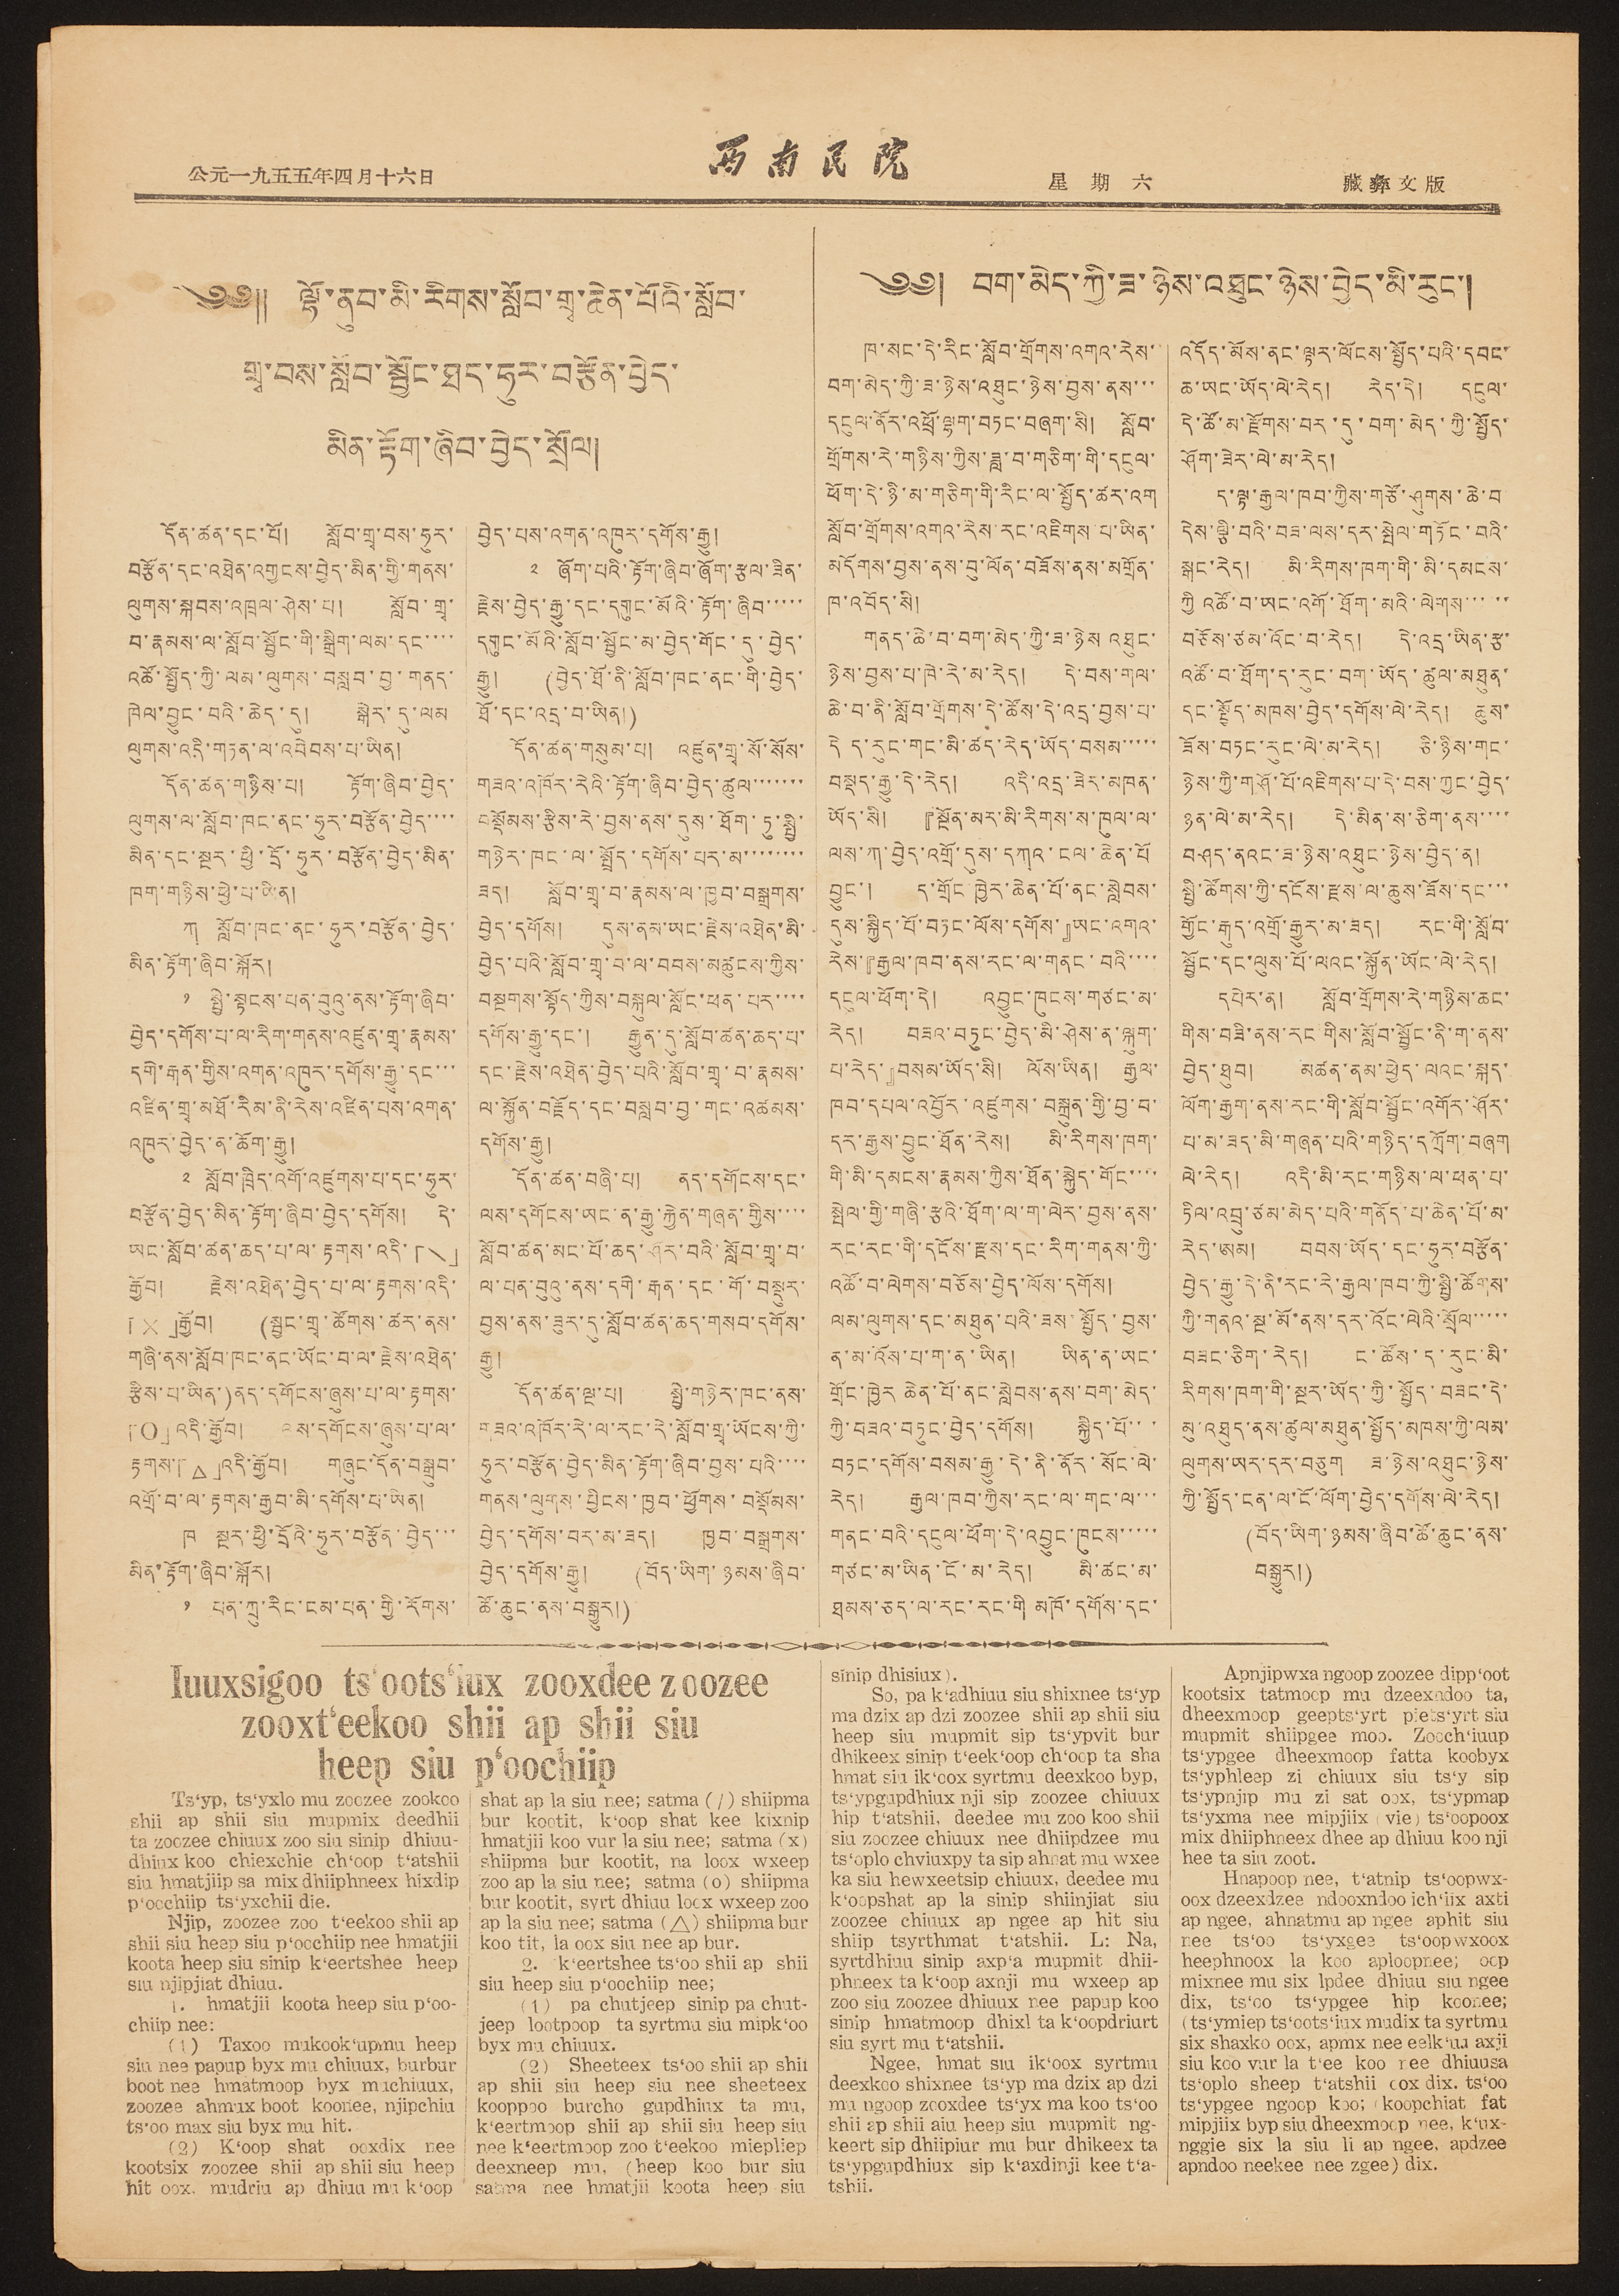公元一九五五年四月十六日 西南民院 星期六 藏彝文版
༄༅༎ ལྷོ་ནུབ་མི་རིགས་སློབ་གྲྭ་ཆེན་པོའི་སློབ་
གྲྭ་བས་སློབ་སྦྱོང་ཐད་ཧུར་བརྩོན་བྱེད་
མིན་རྟོག་ཞིབ་བྱེད་སྲོལ།
དོན་ཚན་དང་པོ། སློབ་གྲྭ་བས་ཧུར་
བརྩོན་དང་འཐེན་འགྱངས་བྱེད་མིན་གྱི་གནས་
ལུགས་སྐབས་འཁྲལ་ཤེས་པ། སློབ་གྭ་
བ་རྣམས་ལ་སློབ་སྦྱོང་གི་སྒྲིག་ལམ་དང་་་་
འཚོ་སྤྱོད་ཀྱི་ལམ་ལུགས་བསླབ་བྱ་གནད་
ཁེལ་བྱུང་བའི་ཆེད་དུ། སྒེར་དུ་ལམ
ལུགས་འདི་གཏན་ལ་འབེབས་པ་ཡིན།
དོན་ཚན་གཉིས་པ། རྟོག་ཞིབ་བྱེད་
ལུགས་ལ་སློབ་ཁང་ནང་ཧུར་བརྩོན་བྱེད་་་་
མིན་དང་སྔར་ཕྱི་དྲོ་ཧུར་བརྩོན་བྱེད་མིན་
ཁག་གཉིས་ཕྱེ་པ་ཡིན།
ཀ སློབ་ཁང་ནང་ཧུར་བརྩོན་བྱེད་
མིན་རྟོག་ཞིབ་སྐོར།
༡ སྤྱི་སྟངས་པན་བུའུ་ནུས་རྟོག་ཞིབ་
བྱེད་དགོས་པ་ལ་རིག་གནས་འཛུན་གྲྭ་རྣམས་
དགེ་རྒན་གྱིས་འགན་འཁུར་དགོས་རྒྱུ་དང་་་
འཛིན་གྲྭ་མཐོ་རིམ་ནི་རེས་འཛིན་པས་འགན་
འཁུར་བྱེད་ན་ཆོག་རྒྱུ།
༢ སློབ་ཁྲིད་འགོ་འཛུགས་པ་དང་ཧུར་
བརྩོན་བྱེད་མིན་རྟོག་ཞིབ་བྱེད་དགོས། དེ་
ཡང་སློབ་ཚན་ཆད་པ་ལ་རྟགས་འདི་「＼」
རྒྱོབ། རྗེས་འཐེན་བྱེད་པ་ལ་རྟགས་འདི་
「✕」རྒྱོབ། (སྦྱང་གྲྭ་ཚོགས་ཚར་ནས་
གཞི་ནས་སློབ་ཁང་ནང་ཡོང་བ་ལ་རྗེས་འཐེན་
རྩིས་པ་ཡིན་)ནད་དགོངས་ཞུས་པ་ལ་རྟགས་
「〇」འདི་རྒྱོབ། ལས་དགོངས་ཞུས་པ་ལ་
རྟགས་「△」འདི་རྒྱོབ། གཞུང་དོན་བསྒྲུབ་
འགྲོ་བ་ལ་རྟགས་རྒྱབ་མི་དགོས་པ་ཡིན།
ཁ སྔར་ཕྱི་དྲོའི་ཧུར་བརྩོན་བྱེད་་་
མིན་རྟོག་ཞིབ་སྐོར།
༡ པན་ཀྲུ་རིང་ངམ་པན་གྱི་རོགས་
བྱེད་པས་འགན་འཁུར་དགོས་རྒྱུ།
༢ ཞོག་པའི་རྟོག་ཞིབ་ཞོག་རྩལ་ཟིན་
རྗེས་བྱེད་རྒྱུ་དང་དགུང་མོའི་རྟོག་ཞིབ་་་་་
དགུང་མོའི་སློབ་སྦྱོང་མ་བྱེད་གོང་དུ་བྱེད་
རྒྱུ། (བྱེད་ཐོ་ནི་སློབ་ཁང་ནང་གི་བྱེད་
ཐོ་དང་འདྲ་བ་ཡིན།)
དོན་ཚན་གསུམ་པ། འཛུན་གྲྭ་སོ་སོས་
གཟའ་འཁོར་རེའི་རྟོག་ཞིབ་བྱེད་ཚུལ་་་་་་་
བསྡོམས་རྩིས་རེ་བྱས་ནས་དུས་ཐོག་ཏུ་སྤྱི་
གཉེར་ཁང་ལ་སྤྲོད་དགོས་པར་མ་་་་་་་་
ཟད། སློབ་གྲྭ་བ་རྣམས་ལ་ཁྱབ་བསྒྲགས་
བྱེད་དགོས། དུས་ནམ་ཡང་རྗེས་འཐེན་མི་
བྱེད་པའི་སློབ་གྲྭ་བ་ལ་བབས་མཚུངས་ཀྱིས་
བསྔགས་སྟོད་ཀྱིས་བསྐུལ་སློང་ཕན་པར་་་་
དགོས་རྒྱུ་དང་། རྒྱུན་དུ་སློབ་ཚན་ཆད་པ་
དང་རྗེས་འཐེན་བྱེད་པའི་སློབ་གྲྭ་བ་རྣམས་
ལ་སྐྱོན་བརྗོད་དང་བསླབ་བྱ་གང་འཚམས་
དགོས་རྒྱུ།
དོན་ཚན་བཞི་པ། ནད་དགོངས་དང་
ལས་དགོངས་ཡང་ན་རྒྱུ་རྐྱེན་གཞན་གྱིས་་་་
སློབ་ཚན་མང་པོ་ཆད་ཤོར་བའི་སློབ་གྲྭ་བ་
ལ་པན་བུའུ་ནས་དགེ་རྒན་དང་གོ་བསྡུར་
བྱས་ནས་ཟུར་དུ་སློབ་ཚན་ཆད་གསབ་དགོས་
རྒྱུ།
དོན་ཚན་ལྔ་པ། སྤྱི་གཉེར་ཁང་ནས་
གཟའ་འཁོར་རེ་ལ་རང་རེ་སློབ་གྲྭ་ཡོངས་ཀྱི་
ཧུར་བརྩོན་བྱེད་མིན་རྟོག་ཞིབ་བྱས་པའི་་་་
གནས་ལུགས་པྱིངས་ཁྱབ་ཕྱོགས་བསྡོམས་
བྱེད་དགོས་པར་མ་ཟད། ཁྱབ་བསྒྲགས་
བྱེད་དགོས་རྒྱུ། (བོད་ཡིག་ཉམས་ཞིབ་
ཚོ་ཆུང་ནས་བསྒྱུར།)
༄༅། བག་མེད་ཀྱི་ཟ་ཉེས་འཐུང་ཉེས་བྱེད་མི་རུང་།
ཁ་སང་དེ་རིང་སློབ་གྲོགས་འགའ་རེས་
བག་མེད་ཀྱི་ཟ་ཉེས་འཐུང་ཉེས་བྱས་ནས་་་
དངུལ་ནོར་འཕྲོ་ལྷག་བཏང་བཞག་སི། སློབ་
གྲོགས་རེ་གཉིས་ཀྱིས་ཟླ་བ་གཅིག་གི་དངུལ་
ཕོག་དེ་ཉི་མ་གཅིག་གི་རིང་ལ་སྤྱོད་ཚར་འག
སློབ་གྲོགས་འགའ་རེས་རང་འཇིགས་པ་ཡིན་
མདོགས་བྱས་ནས་བུ་ལོན་བཟོས་ནས་མགྲོན་
ཁ་འབོད་སི།
གནས་ཆེ་བ་བག་མེད་ཀྱི་ཟ་ཉེས འཐུང་
ཉེས་བྱས་པ་ཁེ་རེ་མ་རེད། དེ་བས་གལ་
ཆེ་བ་ནི་སློབ་གྲོགས་དེ་ཚོས་དེ་འདྲ་བྱས་པ་
དེ ད་རུང་གང་མི་ཚད་རེད་ཡོད་བསམ་་་་་
བསྡད་རྒྱུ་དེ་རེད། འདི་འདྲ་ཟེར་མཁན་
ཡོད་སི། 『སྔོན་མར་མི་རིགས་ས་ཁུལ་ལ་
ལས་ཀ་བྱེད་འགྲོ་དུས་དཀའ་ངལ་ཆེན་པོ
བྱུང་། ད་གྲོང་ཁྱེར་ཆེན་པོ་ནང་སླེབས་
དུས་སྐྱིད་པོ་བཏང་ལོས་དགོས་』ཡང་འགའ་
རེས་『རྒྱལ་ཁབ་ནས་རང་ལ་གནང་བའི་་་་
དངུལ་ཕོག་དེ། འབྱུང་ཁུངས་གཙང་མ་
རེད། བཟའ་བཏུང་བྱེད་མི་ཤེས་ན་ལྐུག་
པ་རེད་』བསམ་ཡོད་སི། ལོས་ཡིན། རྒྱལ་
ཁབ་དཔལ་འབྱོར་འཛུགས་བསྐྲུན་གྱི་བྱ་བ་
དར་རྒྱས་བྱུང་ཐོན་རེས། མི་རིགས་ཁག་
གི་མི་དམངས་རྣམས་ཀྱིས་ཐོན་སྐྱེད་གོང་་་་
སྤེལ་གྱི་གཞི་རྩའི་ཐོག་ལ་ག་ལེར་བྱས་ནས་
རང་རང་གི་དངོས་རྫས་དང་རིག་གནས་ཀྱི་
འཚོ་བ་ལེགས་བཅོས་བྱེད་ལོས་དགོས།
ལམ་ལུགས་དང་མཐུན་པའི་ཟས་སྤྱོད་བྱས་
ན་མ་འོས་པ་ག་ན་ཡིན། ཡིན་ན་ཡང་
གྲོང་ཁྱེར ཆེན་པོ་ནང་སླེབས་ནས་བག་མེད་
ཀྱི་བཟའ་བཏུང་བྱེད་དགོས། སྐྱིད་པོ་་་
བཏང་དགོས་བསམ་རྒྱུ་དེ་ནི་ནོར་སོང་ལེ་
རེད། རྒྱལ་ཁབ་ཀྱིས་རང་ལ་གང་ལ་་་
གནང་བའི་དངུལ་ཕོག་དེ་འབྱུང་ཁུངས་་་་་
གཙང་མ་ཡིན་ངོ་མ་རེད། མི་ཚང་མ་
ཐམས་ཅད་ལ་རང་རང་གི མཁོ་དགོས་དང་
འདོད་མོས་ནང་ལྟར་ལོངས་སྤྱོད་པའི་དབང་
ཆ་ཡང་ཡོད་ལེ་རེད། རེད་དེ། དངུལ་
དེ་ཚོ་མ་རྫོགས་བར་དུ་བག་མེད་ཀྱི་སྤྱོད་
ཤོག་ཟེར་ལེ་མ་རེད།
ད་ལྟ་རྒྱལ་ཁབ་ཀྱིས་གཙོ་ཤུགས་ཆེ་བ་
དེས་ལྕི་བའི་བཟ་ལས་དར་སྤེལ་གཏོང་བའི་
སྒང་རེད། མི་རིགས་ཁག་གི་མི་དམངས་
ཀྱི འཚོ་བ་ཡང་འགོ་ཐོག་མའི་ལེགས་་་་་
བཅོས་ཙམ་འོང་བ་རེད། དེ་འདྲ་ཡིན་རྩ་
འཚོ་བ་ཐོག་ད་རུང་བག་ཡོད་ཚུལ་མཐུན་
དང་སྤྱོད་མཁས་བྱེད་དགོས་ལེ་རེད། ཆུས་
ཟོས་བཏང་རུང་ལེ་མ་རེད། ཅི་ཉིས་གང་
ཉེས་ཀྱི་གཤོ་པོ་འཇིགས་པ་དེ་བས་ཀྱང་བྱེད་
ཉན་ལེ་མ་རེད། དེ་མིན་ས་ཅིག་ནས་་་་
བཤད་ནའང་ཟ་ཉེས་འཐུང་ཉེས་བྱེད་ན།
སྤྱི་ཚོགས་ཀྱི་དངོས་རྫས་ལ་ཆུས་ཟོས་དང་་་
གྱོང་རྒུད་འགྲོ་རྒྱུར་མ་ཟད། རང་གི་སློབ་
སྦྱོང་དང་ལུས་པོ་ལའང་སྐྱོན་ཡོང་ལེ་རེད།
དཔེར་ན། སློབ་གྲོགས་རེ་གཉིས་ཆང་
གིས་བཟི་ནས་རང་གིས་སློབ་སྦྱོང་ནི་ག་ནས་
བྱེད་ཐུབ། མཚན་ནམ་ཕྱེད་ལའང་སྐད་
ལོག་རྒྱག་ནས་རང་གི་སློབ་སྦྱོང་འགོར་ཤོར་
པ་མ་ཟད་མི་གཞན་པའི་གཉིད་དཀྲོག་བཞག
ལེ་རེད། འདི་མི་རང་གཉིས་ལ་ཕན་པ་
ཏིལ་འབྲུ་ཙམ་མེད་པའི་གནོད་པ་ཆེན་པོ་མ་
རེད་ཨམ། བབས་ཡོད་དང་ཧུར་བརྩོན་
བྱེད་རྒྱུ་དེ་ནི་རང་རེ་རྒྱལ་ཁབ་ཀྱི་སྤྱི་ཚོགས་
ཀྱི་གནའ་སྔ་མོ་ནས་དར་འོང་ལེའི་སྲོལ་་་་་
བཟང་ཅིག་རེད། ང་ཚོས་ད་རུང་མི་
རིགས་ཁག་གི་སྔར་ཡོད་ཀྱི་སྤྱོད་བཟང་དེ་
མུ་འཐུད་ནས་ཚུལ་མཐུན་སྤྱོད་མཁས་ཀྱི་ལམ་
ལུགས་ཡར་དར་བཅུག ཟ་ཉེས་འཐུང་ཉེས་
ཀྱི་སྤྱོད་ངན་ལ་ངོ་ལོག་བྱེད་དགོས་ལེ་རེད།
(བོད་ཡིག་ཉམས་ཧཟིབ་ཚོ་ཆུང་ནས་
བསྒྱུར།)
Iuuxsigoo ts'oots'iux zooxdee zoozee
zooxt'eekoo shii ap shii siu
heep siu p'oochiip
Ts'yp, ts'yxlo mu zoozee zookoo
shii ap shii siu mupmix deedhii
ta zoozee chiuux zoo siu sinip dhiuu-
dhiux koo chiexchie ch'oop t'atshii
siu hmatjiip sa mix dhiiphneex hixdip
p'occhiip ts'yxchii die.
Njip, zoozee zoo t'eekoo shii ap
shii siu heep siu p'occhiip nee hmatjii
koota heep siu sinip k'eertshee heep
siu njipjiat dhiuu.
1. hmatjii koota heep siu p'oo-
chiip nee:
(1) Taxoo mukook'upmu heep
siu nee papup byx mu chiuux, burbur
boot nee hmatmoop byx muchiuux,
zoozee ahmux boot koonee, njipchiu
ts'oo max siu byx mu hit.
(2) K'oop shat ooxdix nee
kootsix zoozee shii ap shii siu heep
hit oox, mudriu ap dhiuu mu k'oop
shat ap la siu nee; satma (/) shiipma
bur kootit, k'oop shat kee kixnip
hmatjii koo vur la siu nee; satma (x)
shiipma bur kootit, na loox wxeep
zoo ap la siu nee; satma (o) shiipma
bur kootit, syrt dhiuu loox wxeep zoo
ap la siu nee; satma (△) shiipma bur
koo tit, la oox siu nee ap bur.
2. k'eertshee ts'oo shii ap shii
siu heep siu p'oochiip nee;
(1) pa chutjeep sinip pa chut-
jeep lootpoop ta syrtmu siu mipk'oo
byx mu chiuux.
(2) Sheeteex ts'oo shii ap shii
ap shii siu heep siu nee sheeteex
kooppoo bur cho gupdhiux ta mu,
k'eertmoop shii ap shii siu heep siu
nee k'eertmoop zoo t'eekoo miepliep
deexneep mu, (heep koo bur siu
satma nee hmatjii koota heep siu
sinip dhisiux).
So, pa k'adhiuu siu shixnee ts'yp
ma dzix ap dzi zoozee shii ap shii siu
heep siu mupmit sip ts'ypvit bur
dhikeex sinip t'eek'oop ch'oop ta sha
hmat siu ik'oox syrtmu deexkoo byp,
ts'ypgupdhiux nji sip zoozee chiuux
hip t'atshii, deedee mu zoo koo shii
siu zoozee chiuux nee dhiipdzee mu
ts'oplo chviuxpy ta sip ahnat mu wxee
ka siu hewxeetsip chiuux, deedee mu
k'oopshat ap la sinip shiinjiat siu
zoozee chiuux ap ngee ap hit siu
shiip tsyrthmat t'atshii. L: Na,
syrtdhiuu sinip axp'a mupmit dhii-
phneex ta k'oop axnji mu wxeep ap
zoo siu zoozee dhiuux nee papup koo
sinip hmatmoop dhixl ta k'oopdriurt
siu syrt mu t'atshii.
Ngee, hmat siu ik'oox syrtmu
deexkoo shixnee ts'yp ma dzix ap dzi
mu ngoop zooxdee ts'yx ma koo ts'oo
shii ap shii aiu heep siu mupmit ng-
keert sip dhiipiur mu bur dhikeex ta
ts'ypgupdhiux sip k'axdinji kee t'a-
tshii.
Apnjipwxa ngoop zoozee dipp'oot
kootsix tatmoop mu dzeexndoo ta,
dheexmoop geepts'yrt piets'yrt siu
mupmit shiipgee moo. Zooch'iuup
ts'ypgee dheexmoop fatta koobyx
ts'yphleep zi chiuux siu ts'y sip
ts'ypnjip mu zi sat oox, ts'ypmap
ts'yxma nee mipjiix (vie) ts'oopoox
mix dhiiphneex dhee ap dhiuu koo nji
hee ta siu zoot.
Hnapoop nee, t'atnip ts'oopwx-
oox dzeexdzee ndooxndoo ich'iix axti
ap ngee, ahnatmu ap ngee aphit siu
nee ts'oo ts'yxgee ts'oopwxoox
heephnoox la koo aploopnee; oop
mixnee mu six lpdee dhiuu siu ngee
dix, ts'oo ts'ypgee hip koonee;
(ts'ymiep ts'oots'iux mudix ta syrtmu
six shaxko oox, apmx nee eelk'uu axji
siu koo vur la t'ee koo ree dhiuusa
ts'oplo sheep t'atshii oox dix. ts'oo
ts'ypgee ngoop koo; nkoopchiat fat
mipjiix byp siu dheexmoop nee, k'ux-
nggie six la siu li ap ngee, apdzee
apndoo neekee nee zgee) dix.
